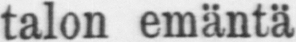talon emäntä
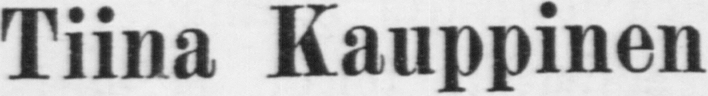Tiina Kauppinen
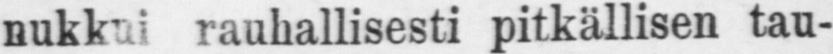nukkui rauhallisesti pitkällisen tau-
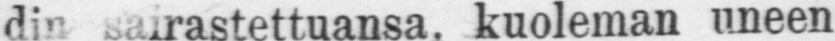din sairastettuansa, kuoleman uneen
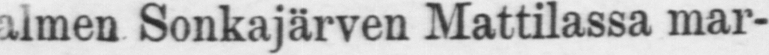Iisalmen Sonkajärven Mattilassa mar-
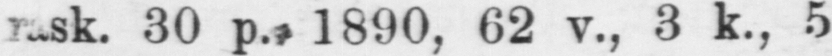rask. 30 p. 1890, 62 v., 3 k., 5
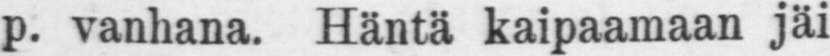p. vanhana. Häntä kaipaamaan jäi
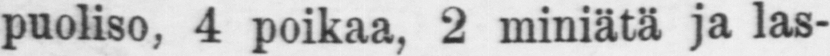puoliso, 4 poikaa, 2 miniätä ja las-
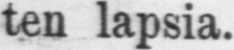ten lapsia.
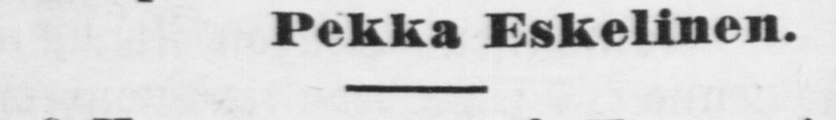Pekka Eskelinen.
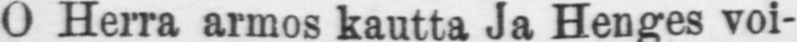O Herra armos kautta ja Henges voi-
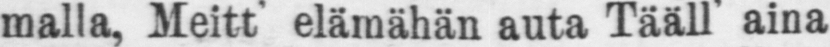malla, Meitt' elämähän auta Tääll aina
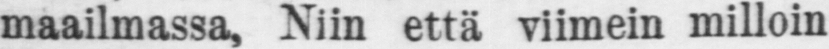maailmassa, Niin että viimein milloin
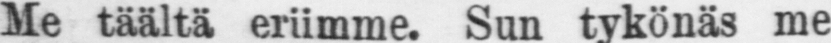Me täältä eriimme. Sun tykönäs me
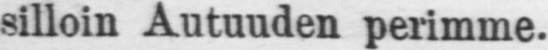silloin Autuuden perimme.
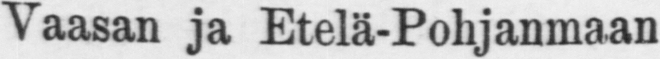Vaasan ja Etelä-Pohjanmaan
